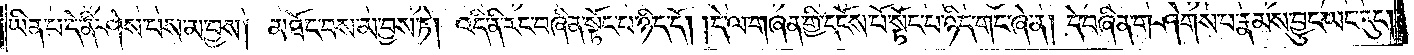ཡིན་པ་དེ་ནི་ཤེས་པས་མ་བྱས། མཐོང་བས་མ་བྱས་ཏེ། འདི་ནི་རང་བཞིན་སྟོང་པ་ཉིད་དོ། །དེ་ལ་གཞན་གྱི་དངོས་པོ་སྟོང་པ་ཉིད་གང་ཞེ་ན། དེ་བཞིན་གཤེགས་པ་རྣམས་བྱུང་ཡང་རུང༌།
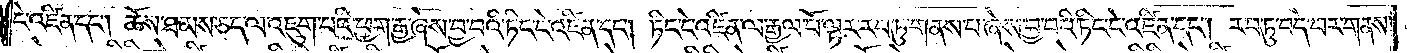ངེ་འཛིན་དང༌། ཆོས་ཐམས་ཅད་ལ་འཇུག་པའི་ཕྱག་རྒྱ་ཞེས་བྱ་བའི་ཏིང་ངེ་འཛིན་དང༌། ཏིང་ངེ་འཛིན་ལ་རྒྱལ་པོ་ལྟར་རབ་ཏུ་གནས་པ་ཞེས་བྱ་བའི་ཏིང་ངེ་འཛིན་དང༌། རབ་ཏུ་བདེ་བར་གནས་
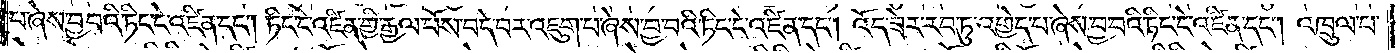པ་ཞེས་བྱ་བའི་ཏིང་ངེ་འཛིན་དང༌། ཏིང་ངེ་འཛིན་གྱི་རྒྱལ་པོས་བདེ་བར་འཇུག་པ་ཞེས་བྱ་བའི་ཏིང་ངེ་འཛིན་དང༌། འོད་ཟེར་རབ་ཏུ་འགྱེད་པ་ཞེས་བྱ་བའི་ཏིང་ངེ་འཛིན་དང༌། འཁྲུལ་པ་
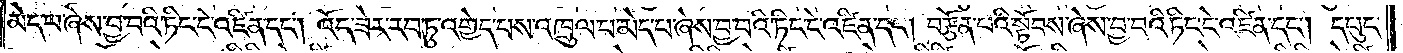མེད་པ་ཞེས་བྱ་བའི་ཏིང་ངེ་འཛིན་དང༌། འོད་ཟེར་རབ་ཏུ་འགྱེད་པས་འཁྲུལ་པ་མེད་པ་ཞེས་བྱ་བའི་ཏིང་ངེ་འཛིན་དང༌། བརྩོན་པའི་སྟོབས་ཞེས་བྱ་བའི་ཏིང་ངེ་འཛིན་དང༌། དཔུང་
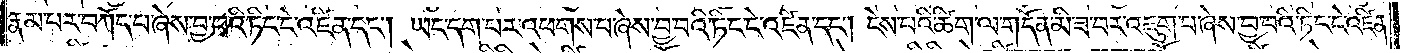རྣམ་པར་བཀོད་པ་ཞེས་བྱ་བའི་ཏིང་ངེ་འཛིན་དང༌། ཡང་དག་པར་འཕགས་པ་ཞེས་བྱ་བའི་ཏིང་ངེ་འཛིན་དང༌། ངེས་པའི་ཚིག་ལ་གདོན་མི་ཟ་བར་འཇུག་པ་ཞེས་བྱ་བའི་ཏིང་ངེ་འཛིན་
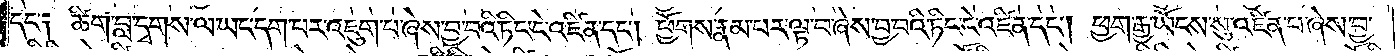དང༌། ཚིག་བླ་དྭགས་ལ་ཡང་དག་པར་འཇུག་པ་ཞེས་བྱ་བའི་ཏིང་ངེ་འཛིན་དང༌། ཕྱོགས་རྣམ་པར་ལྟ་བ་ཞེས་བྱ་བའི་ཏིང་ངེ་འཛིན་དང༌། ཕྱག་རྒྱ་ཡོངས་སུ་འཛིན་པ་ཞེས་བྱ་
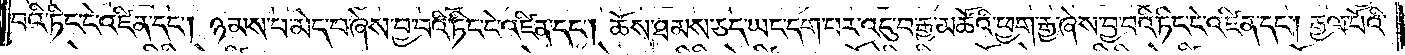བའི་ཏིང་ངེ་འཛིན་དང༌། ཉམས་པ་མེད་པ་ཞེས་བྱ་བའི་ཏིང་ངེ་འཛིན་དང༌། ཆོས་ཐམས་ཅད་ཡང་དག་པར་འདུ་བ་རྒྱ་མཚོའི་ཕྱག་རྒྱ་ཞེས་བྱ་བའི་ཏིང་ངེ་འཛིན་དང༌། རྒྱལ་པོའི་
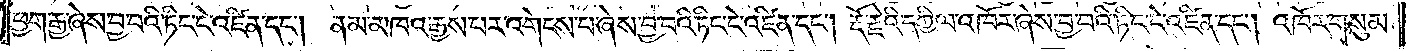ཕྱག་རྒྱ་ཞེས་བྱ་བའི་ཏིང་ངེ་འཛིན་དང༌། ནམ་མཁའ་རྒྱས་པར་འགེངས་པ་ཞེས་བྱ་བའི་ཏིང་ངེ་འཛིན་དང༌། རྡོ་རྗེའི་དཀྱིལ་འཁོར་ཞེས་བྱ་བའི་ཏིང་ངེ་འཛིན་དང༌། འཁོར་གསུམ་
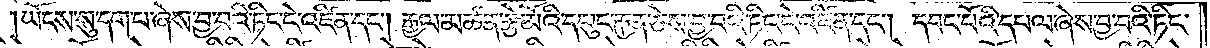ཡོངས་སུ་དག་པ་ཞེས་བྱ་བའི་ཏིང་ངེ་འཛིན་དང༌། རྒྱལ་མཚན་རྩེ་མོའི་དཔུང་རྒྱན་ཅེས་བྱ་བའི་ཏིང་ངེ་འཛིན་དང༌། དབང་པོའི་དཔལ་ཞེས་བྱ་བའི་ཏིང་
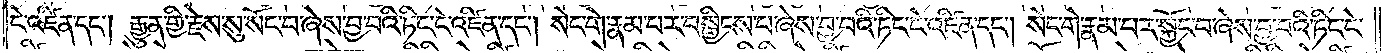ངེ་འཛིན་དང༌། རྒྱུན་གྱི་རྗེས་སུ་སོང་བ་ཞེས་བྱ་བའི་ཏིང་ངེ་འཛིན་དང༌། སེང་གེ་རྣམ་པར་བསྒྱིངས་པ་ཞེས་བྱ་བའི་ཏིང་ངེ་འཛིན་དང༌། སེང་གེ་རྣམ་པར་སྐྱོང་བ་ཞེས་བྱ་བའི་ཏིང་ངེ་
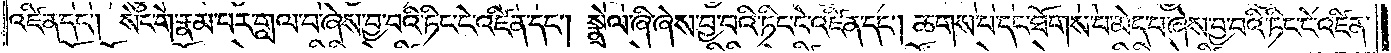འཛིན་དང༌། སེང་གེ་རྣམ་པར་གླལ་བ་ཞེས་བྱ་བའི་ཏིང་ངེ་འཛིན་དང༌། སྣྲེལ་ཞི་ཞེས་བྱ་བའི་ཏིང་ངེ་འཛིན་དང༌། ཆགས་པ་དང་ཐོགས་པ་མེད་པ་ཞེས་བྱ་བའི་ཏིང་ངེ་འཛིན་
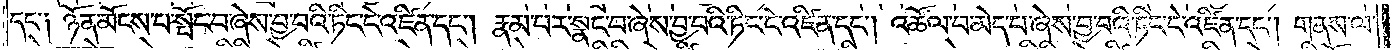དང༌། ཉོན་མོངས་པ་སྤོང་བ་ཞེས་བྱ་བའི་ཏིང་ངེ་འཛིན་དང༌། རྣམ་པར་སྣང་བ་ཞེས་བྱ་བའི་ཏིང་ངེ་འཛིན་དང༌། འཚོལ་བ་མེད་པ་ཞེས་བྱ་བའི་ཏིང་ངེ་འཛིན་དང༌། གནས་ལ་
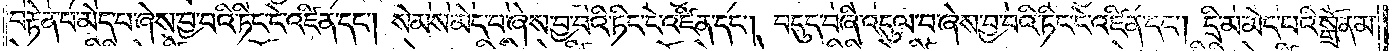བརྟེན་པ་མེད་པ་ཞེས་བྱ་བའི་ཏིང་ངེ་འཛིན་དང༌། སེམས་མེད་པ་ཞེས་བྱ་བའི་ཏིང་ངེ་འཛིན་དང༌། བདུད་བཞི་འདུལ་བ་ཞེས་བྱ་བའི་ཏིང་ངེ་འཛིན་དང༌། དྲི་མ་མེད་པའི་སྒྲོན་མ་
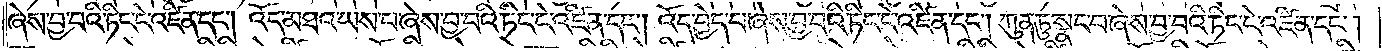ཞེས་བྱ་བའི་ཏིང་ངེ་འཛིན་དང༌། འོད་མཐའ་ཡས་པ་ཞེས་བྱ་བའི་ཏིང་ངེ་འཛིན་དང༌། འོད་བྱེད་པ་ཞེས་བྱ་བའི་ཏིང་ངེ་འཛིན་དང༌། ཀུན་ཏུ་སྣང་བ་ཞེས་བྱ་བའི་ཏིང་ངེ་འཛིན་དང༌།
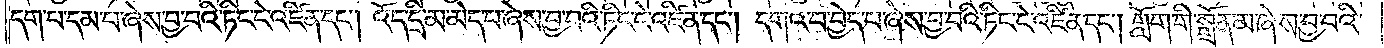དག་པ་དམ་པ་ཞེས་བྱ་བའི་ཏིང་ངེ་འཛིན་དང༌། འོད་དྲི་མ་མེད་པ་ཞེས་བྱ་བའི་ཏིང་ངེ་འཛིན་དང༌། དགའ་བ་བྱེད་པ་ཞེས་བྱ་བའི་ཏིང་ངེ་འཛིན་དང༌། གློག་གི་སྒྲོན་མ་ཞེས་བྱ་བའི་
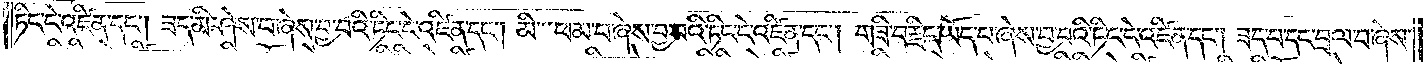ཏིང་ངེ་འཛིན་དང༌། ཟད་མི་ཤེས་པ་ཞེས་བྱ་བའི་ཏིང་ངེ་འཛིན་དང༌། མི་ཕམ་པ་ཞེས་བྱ་བའི་ཏིང་ངེ་འཛིན་དང༌། གཟི་བརྗིད་ཡོད་པ་ཞེས་བྱ་བའི་ཏིང་ངེ་འཛིན་དང༌། ཟད་པ་དང་བྲལ་བ་ཞེས་
